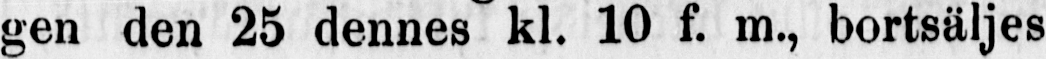gen den 25 dennes kl. 10 f. m., bortsäljes
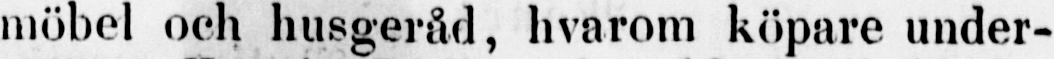möbel och husgeråd, hvarom köpare under-
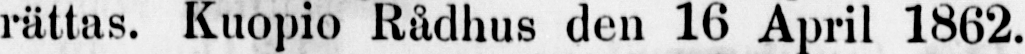rättas. Kuopio Rådhus den 16 April 1862.
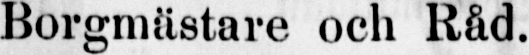Borgmästare och Råd.
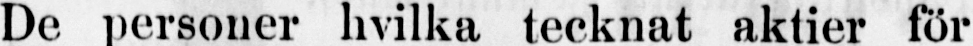De personer hvilka tecknat aktier för
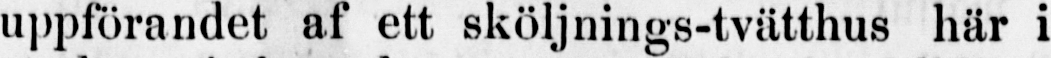uppförandet af ett sköljnings-tvätthus här i
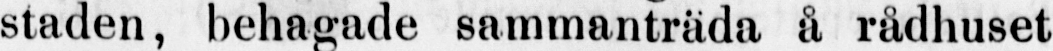staden, behagade sammanträda å rådhuset
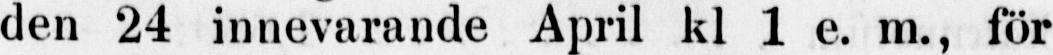den 24 innevarande April k1 1 e. m., för
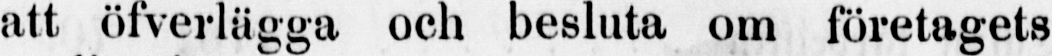att öfverlägga och besluta om företagets
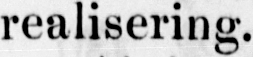realisering.
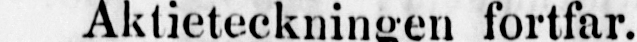Aktieteckningen fortfar.
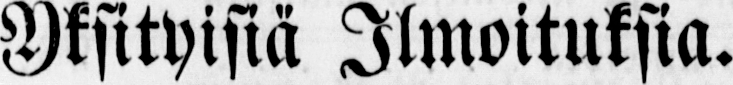Yksityisiä Ilmoituksia.
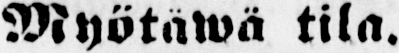Myötäwä tila.
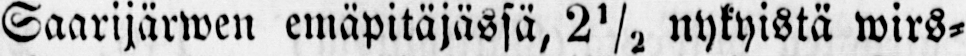Saarijärwen emäpitäjässä, 2½ nykyistä wirs-
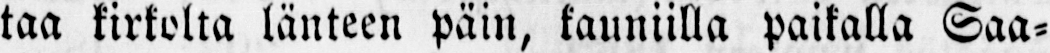taa kirkolta länteen päin, kauniilla paikalla Saa-
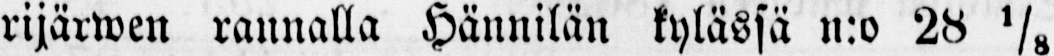rijärwen rannalla Hännilän kylässä n:o 28 1/8
